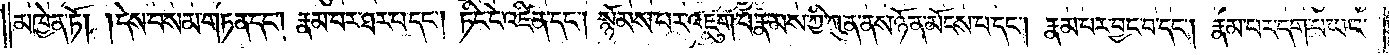མཁྱེན་ཏོ། །དེས་བསམ་གཏན་དང༌། རྣམ་པར་ཐར་པ་དང༌། ཏིང་ངེ་འཛིན་དང༌། སྙོམས་པར་འཇུག་པ་རྣམས་ཀྱི་ཀུན་ནས་ཉོན་མོངས་པ་དང༌། རྣམ་པར་བྱང་བ་དང༌། རྣམ་པར་དག་པ་ཡང་
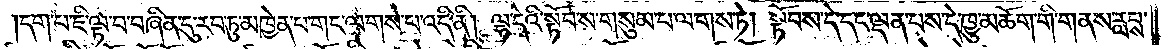དག་པ་ཇི་ལྟ་བ་བཞིན་དུ་རབ་ཏུ་མཁྱེན་པ་གང་ལགས་པ་འདི་ནི། ལྷ་དེའི་སྟོབ་ས་གསུམ་པ་ལགས་ཏེ། སྟོབས་དེ་དང་ལྡན་པས་དེ་ཁྱུ་མཆོག་གི་གནས་རླབས་
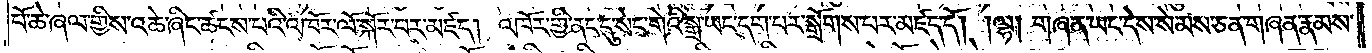པོ་ཆེ་ཞལ་གྱིས་འཆེ་ཞིང་ཚངས་པའི་འཁོར་ལོ་སྐོར་བར་མཛད། འཁོར་གྱི་ནང་དུ་སེང་གེའི་སྒྲ་ཡང་དག་པར་སྒྲོགས་པར་མཛད་དོ། །ལྷ། གཞན་ཡང་དེས་སེམས་ཅན་གཞན་རྣམས་
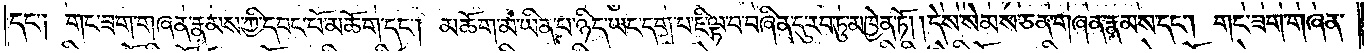དང་༑ གང་ཟག་གཞན་རྣམས་ཀྱི་དབང་པོ་མཆོག་དང༌། མཆོག་མ་ཡིན་པ་ཉིད་ཡང་དག་པ་ཇི་ལྟ་བ་བཞིན་དུ་རབ་ཏུ་མཁྱེན་ཏོ། །དེས་སེམས་ཅན་གཞན་རྣམས་དང༌། གང་ཟག་གཞན་
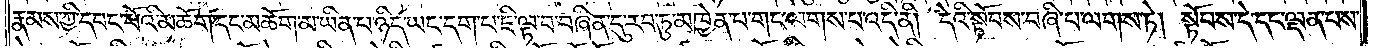རྣམས་ཀྱི་དབང་པོའི་མཆོག་དང་མཆོག་མ་ཡིན་པ་ཉིད་ཡང་དག་པ་ཇི་ལྟ་བ་བཞིན་དུ་རབ་ཏུ་མཁྱེན་པ་གང་ལགས་པ་འདི་ནི། དེའི་སྟོབས་བཞི་པ་ལགས་ཏེ། སྟོབས་དེ་དང་ལྡན་པས་
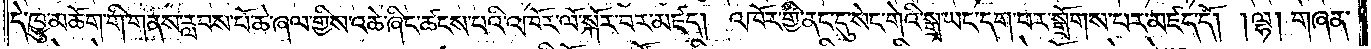དེ་ཁྱུ་མཆོག་གི་གནས་རླབས་པོ་ཆེ་ཞལ་གྱིས་འཆེ་ཞིང་ཚངས་པའི་འཁོར་ལོ་སྐོར་བར་མཛད། འཁོར་གྱི་ནང་དུ་སེང་གེའི་སྒྲ་ཡང་དག་པར་སྒྲོགས་པར་མཛད་དོ། །ལྷ། གཞན་
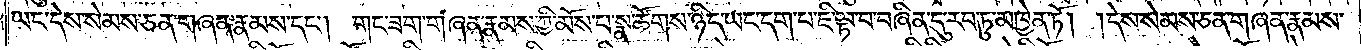ཡང་དེས་སེམས་ཅན་གཞན་རྣམས་དང༌། གང་ཟག་གཞན་རྣམས་ཀྱི་མོས་པ་སྣ་ཚོགས་ཉིད་ཡང་དག་པ་ཇི་ལྟ་བ་བཞིན་དུ་རབ་ཏུ་མཁྱེན་ཏོ། །དེས་སེམས་ཅན་གཞན་རྣམས་
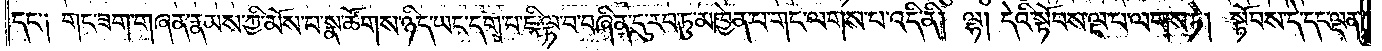དང་༑ གང་ཟག་གཞན་རྣམས་ཀྱི་མོས་པ་སྣ་ཚོགས་ཉིད་ཡང་དག་པ་ཇི་ལྟ་བ་བཞིན་དུ་རབ་ཏུ་མཁྱེན་པ་གང་ལགས་པ་འདི་ནི། ལྷ། དེའི་སྟོབས་ལྔ་པ་ལགས་ཏེ། སྟོབས་དེ་དང་ལྡན་
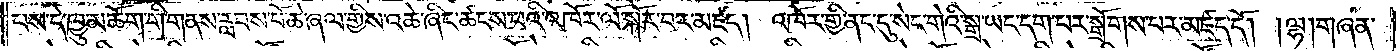པས་དེ་ཁྱུ་མཆོག་གི་གནས་རླབས་པོ་ཆེ་ཞལ་གྱིས་འཆེ་ཞིང་ཚངས་པའི་འཁོར་ལོ་སྐོར་བར་མཛད། འཁོར་གྱི་ནང་དུ་སེང་གེའི་སྒྲ་ཡང་དག་པར་སྒྲོགས་པར་མཛད་དོ། །ལྷ། གཞན་
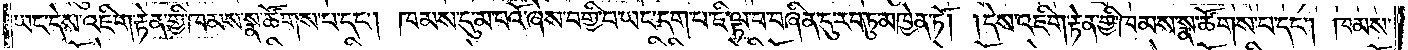ཡང་དེས་འཇིག་རྟེན་གྱི་ཁམས་སྣ་ཚོགས་པ་དང༌། ཁམས་དུ་མ་པའོ་ཞེས་བགྱི་བ་ཡང་དག་པ་ཇི་ལྟ་བ་བཞིན་དུ་རབ་ཏུ་མཁྱེན་ཏོ། །དེས་འཇིག་རྟེན་གྱི་ཁམས་སྣ་ཚོགས་པ་དང༌། ཁམས་
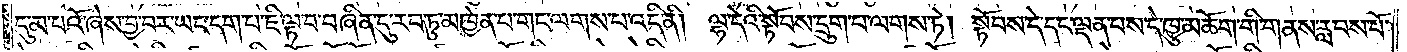དུ་མ་པའོ་ཞེས་བྱ་བར་ཡང་དག་པ་ཇི་ལྟ་བ་བཞིན་དུ་རབ་ཏུ་མཁྱེན་པ་གང་ལགས་པ་འདི་ནི། ལྷ་དེའི་སྟོབས་དྲུག་པ་ལགས་ཏེ། སྟོབས་དེ་དང་ལྡན་པས་དེ་ཁྱུ་མཆོག་གི་གནས་རླབས་པོ་
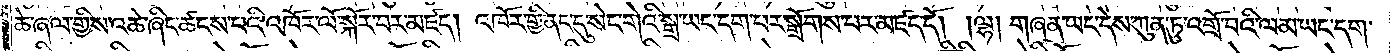ཆེ་ཞལ་གྱིས་འཆེ་ཞིང་ཚངས་པའི་འཁོར་ལོ་སྐོར་བར་མཛད། འཁོར་གྱི་ནང་དུ་སེང་གེའི་སྒྲ་ཡང་དག་པར་སྒྲོགས་པར་མཛད་དོ། །ལྷ། གཞན་ཡང་དེས་ཀུན་ཏུ་འགྲོ་བའི་ལམ་ཡང་དག་
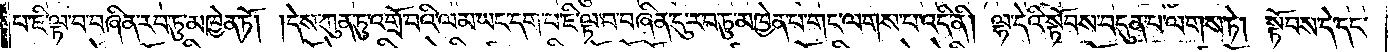པ་ཇི་ལྟ་བ་བཞིན་རབ་ཏུ་མཁྱེན་ཏོ། །དེས་ཀུན་ཏུ་འགྲོ་བའི་ལམ་ཡང་དག་པ་ཇི་ལྟ་བ་བཞིན་དུ་རབ་ཏུ་མཁྱེན་པ་གང་ལགས་པ་འདི་ནི། ལྷ་དེའི་སྟོབས་བདུན་པ་ལགས་ཏེ། སྟོབས་དེ་དང་
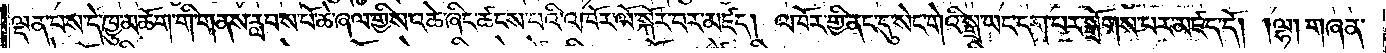ལྡན་པས་དེ་ཁྱུ་མཆོག་གི་གནས་རླབས་པོ་ཆེ་ཞལ་གྱིས་འཆེ་ཞིང་ཚངས་པའི་འཁོར་ལོ་སྐོར་བར་མཛད། འཁོར་གྱི་ནང་དུ་སེང་གེའི་སྒྲ་ཡང་དག་པར་སྒྲོགས་པར་མཛད་དོ། །ལྷ། གཞན་
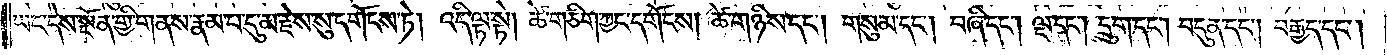ཡང་དེས་སྔོན་གྱི་གནས་རྣམ་པ་དུ་མ་རྗེས་སུ་དགོངས་ཏེ། འདི་ལྟ་སྟེ། ཚེ་གཅིག་ཀྱང་དགོངས། ཚེ་གཉིས་དང༌། གསུམ་དང༌། བཞི་དང༌། ལྔ་དང༌། དྲུག་དང༌། བདུན་དང༌། བརྒྱད་དང༌།
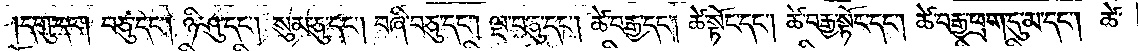དགུ་དང༌། བཅུ་དང༌། ཉི་ཤུ་དང༌། སུམ་ཅུ་དང༌། བཞི་བཅུ་དང༌། ལྔ་བཅུ་དང༌། ཚེ་བརྒྱ་དང༌། ཚེ་སྟོང་དང༌། ཚེ་བརྒྱ་སྟོང་དང༌། ཚེ་བརྒྱ་ཕྲག་དུ་མ་དང༌། ཚེ་
